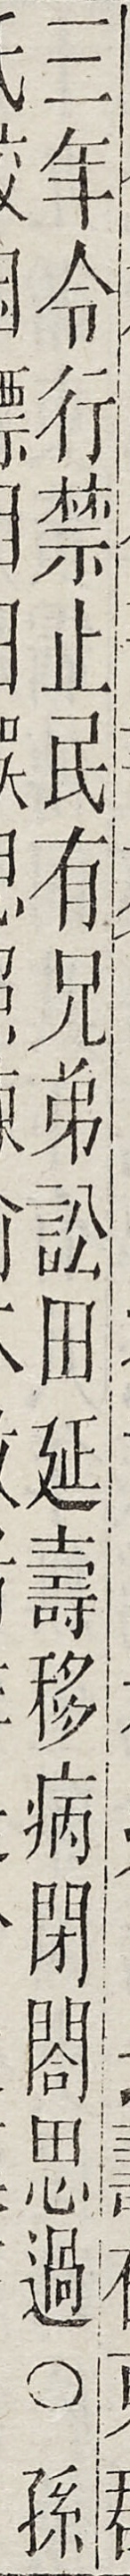三年令行禁止民有兄弟訟田延壽移病閉合思過○孫
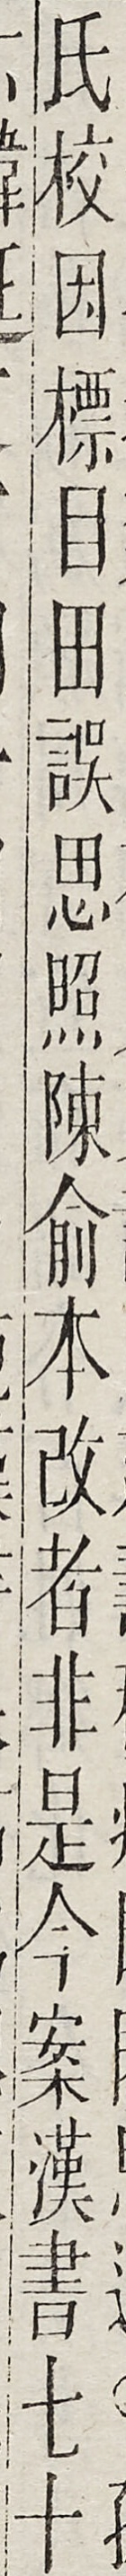氏校因標目田誤思照陳俞本改者非是今案漢書七十
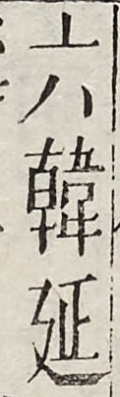六韓延
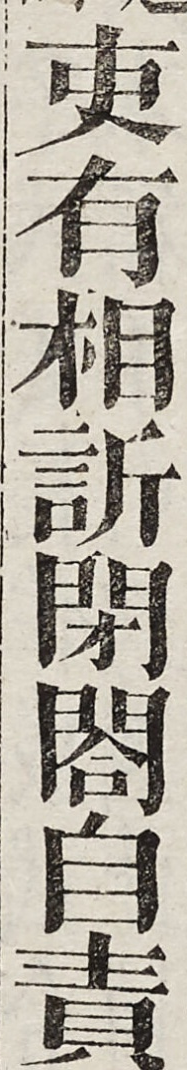吏有相欣閉合自責
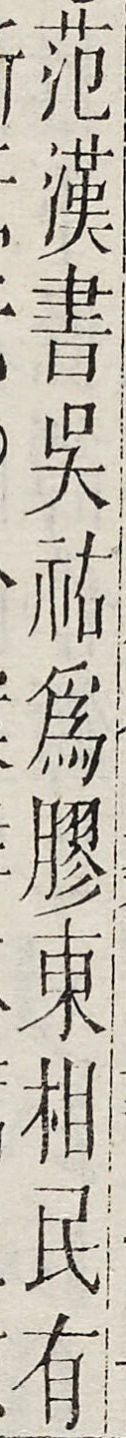範漢書吳佑為膠東相民有
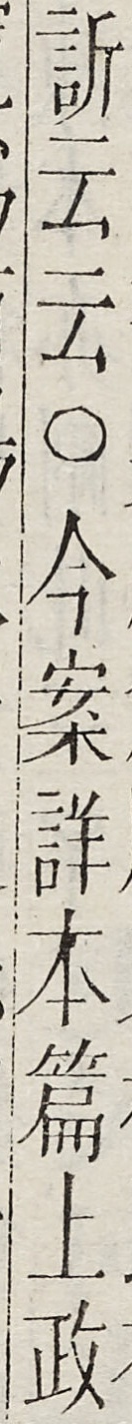欣云云○今案詳本篇上政
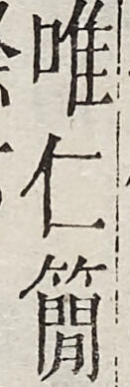唯仁簡
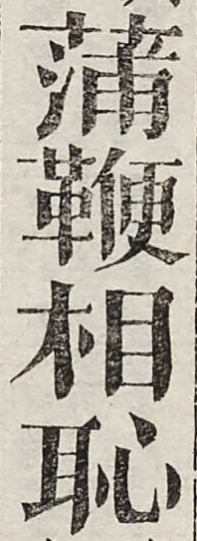蒲鞭相恥
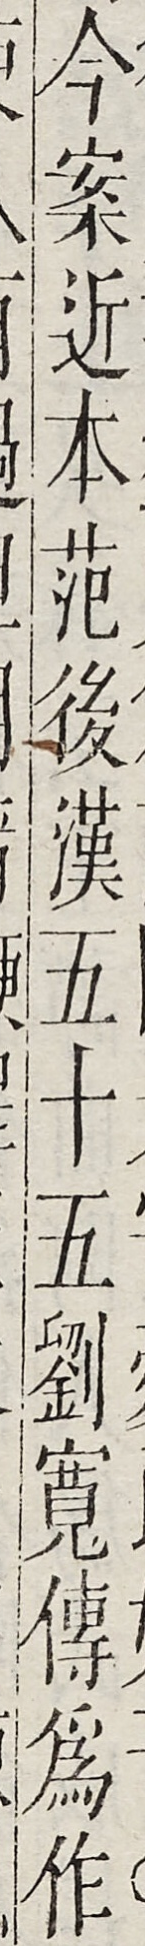今案近本範後漢五十五劉寬傳為作
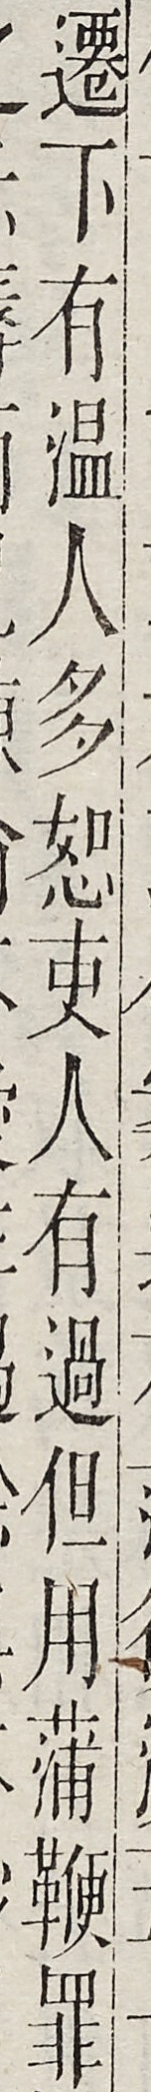遷下有溫人多恕吏人有過但用蒲鞭罪
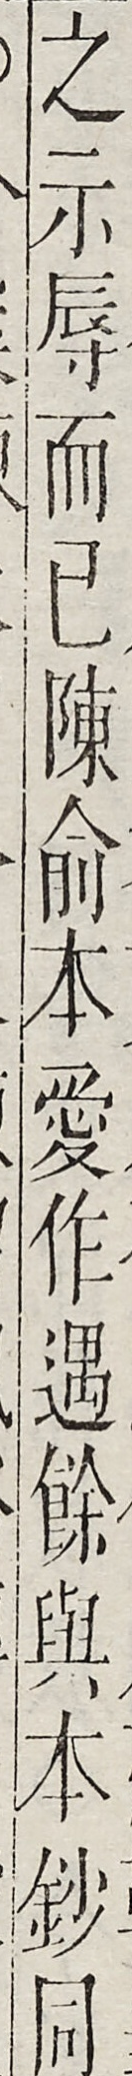之示辱而己陳俞本愛作遇餘與本鈔同
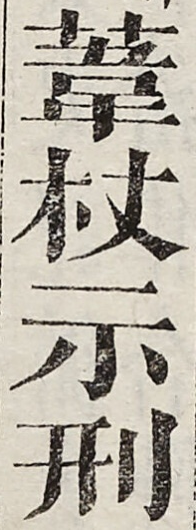葦杖示刑
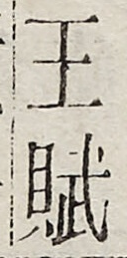王賦
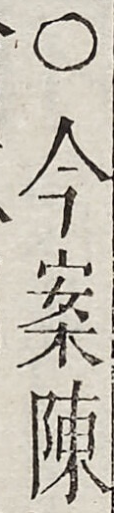○今案陳
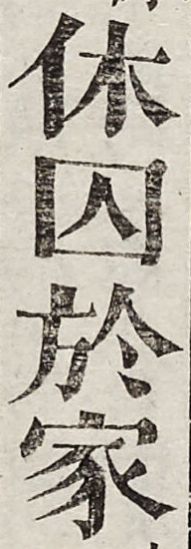休囚於家
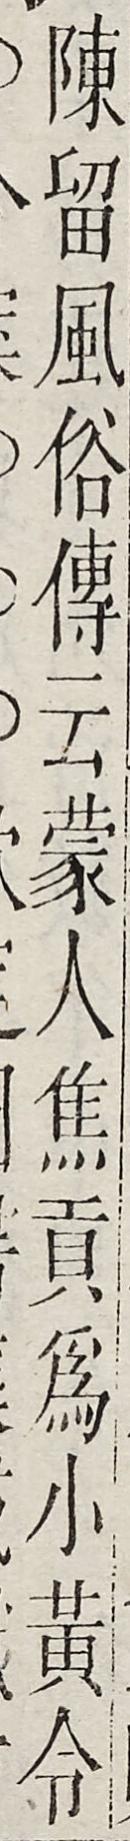陳留風俗傳云蒙人焦貢為小黃令
